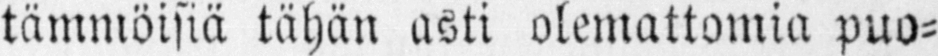tämmöisiä tähän asti olemattomia puo-
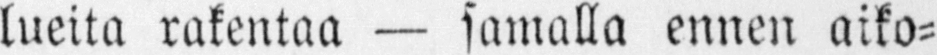lueita rakentaa — samalla ennen aiko-
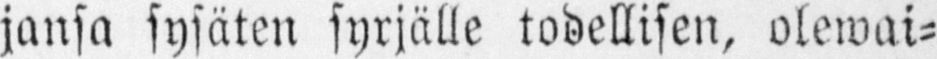jansa sysäten syrjälle todellisen, olewai-
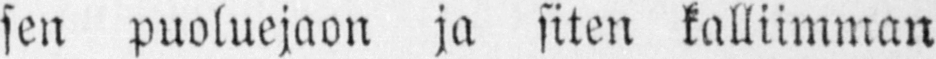sen puoluejaon ja siten kalliimman
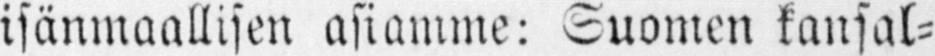isänmaallisen asiamme: Suomen kansal-
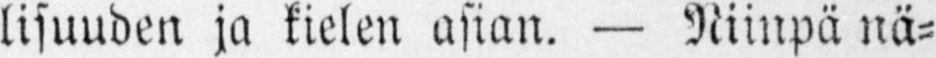lisuuden ja kielen asian. — Niinpä nä-
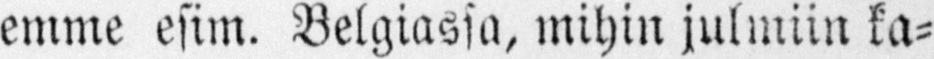emme esim. Belgiassa, mihin julmiin ka-
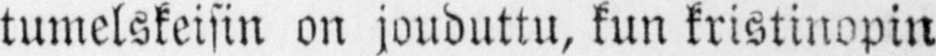tumelskeisin on jouduttu, kun kristinopin
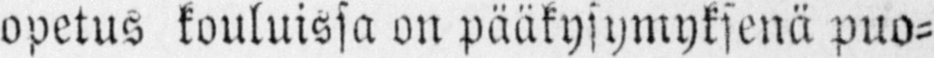opetus kouluissa on pääkysymyksenä puo-
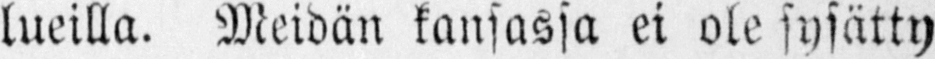lueilla. Meidän kansassa ei ole sysätty
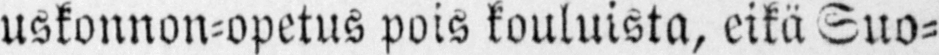uskonnon-opetus pois kouluista, eikä Suo-
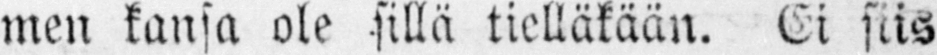men kansa ole sillä tielläkään. Ei siis
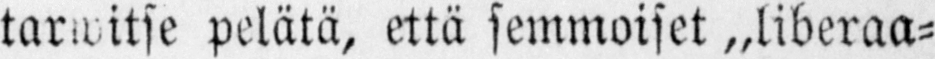tarwitse pelätä, että semmoiset „liberaa-
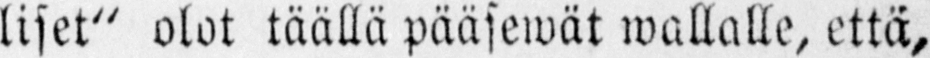liset" olot täällä pääsewät wallalle, että,
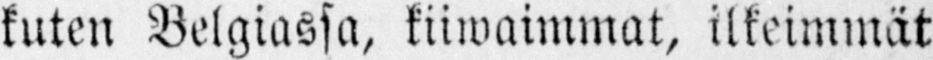kuten Belgiassa, kiiwaimmat, ilkeimmät
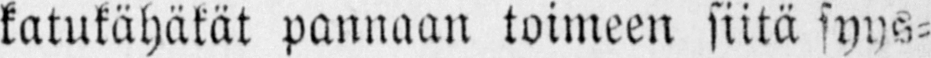katukähäkät pannaan toimeen siitä syys-
